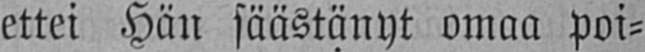ettei Hän säästänyt omaa Poi-
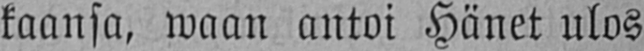kaansa, waan antoi Hänet ulos
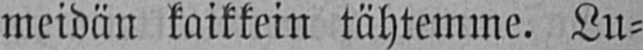meidän kaikkein tähtemme. Lu-
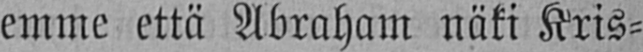emme että Abraham näki Kris-
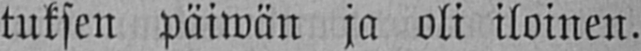tuksen päiwän ja oli iloinen.
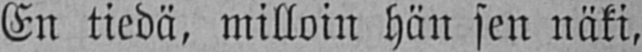En tiedä, milloin hän sen näki,
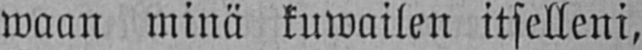waan minä kuwailen itselleni,
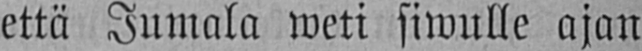että Jumala weti siwulle ajan
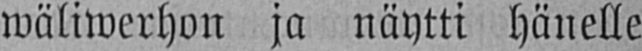wäliwerhon ja näytti hänelle
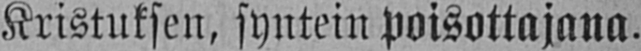Kristuksen, syntein poisottajana.
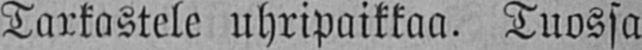Tarkastele uhripaikkaa. Tuossa
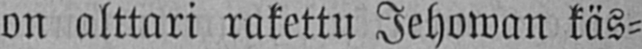on alttari rakettn Jehowan käs-
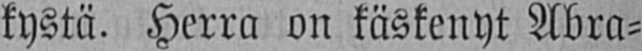kystä. Herra on käskenyt Abra-
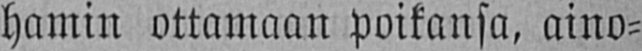hamin ottamaan poikansa, aino-
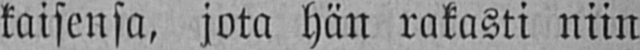kaisensa, jota hän rakasti niin
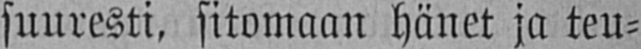suuresti, sitomaan hänet ja teu-
